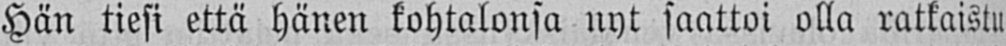Hän tiesi että hänen kohtalonsa nyt saattoi olla ratkaistu
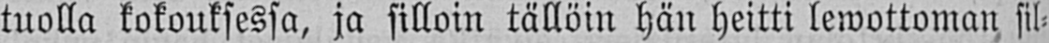tuolla kokouksessa, ja silloin tällöin hän heitti lewottoman sil-
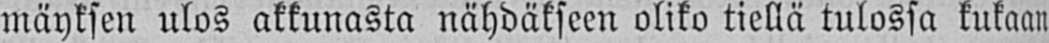mäyksen ulos akkunasta nähdäkseen oliko tiellä tulossa kukaan
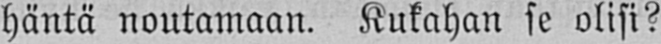häntä noutamaan. Kukahan se olisi?
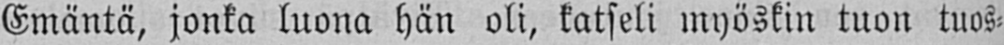Emäntä, jonka luona hän oli, katseli myöskin tuon tuos-
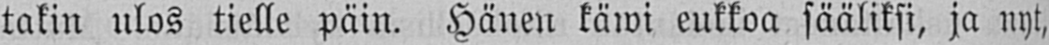takin ulos tielle päin. Hänen käwi eukkoa sääliksi, ja nyt,
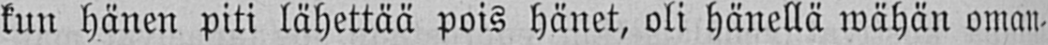kun hänen piti lähettää pois hänet, oli hänellä wähän oman-
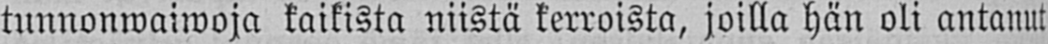tunnonwaiwoja kaikista niistä kerroista, joilla hän oli antanut
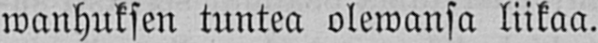wanhuksen tuntea olewansa liikaa.
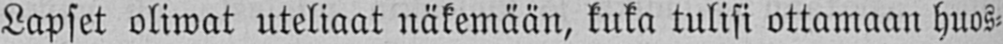Lapset oliwat uteliaat näkemään, kuka tulisi ottamaan huos-
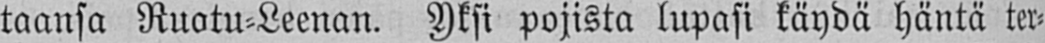taansa Ruotu-Leenan. Yksi pojista lupasi käydä häntä ter-
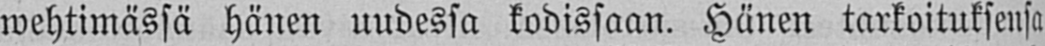wehtimässä hänen uudessa kodissaan. Hänen tarkoituksensa
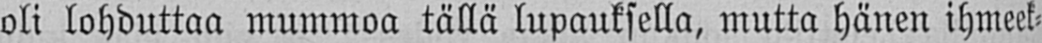oli lohduttaa mummoa tällä lupauksella, mutta hänen ihmeek-
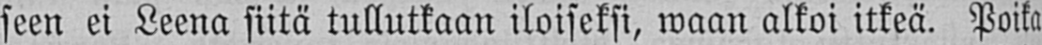seen ei Leena siitä tullutkaan iloiseksi, waan alkoi itkeä. Poika
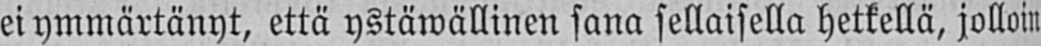ei ymmärtänyt, että ystäwällinen sana sellaisella hetkellä, jolloin
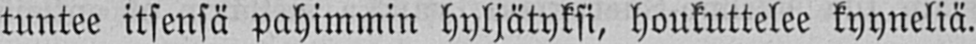tuntee itsensä pahimmin hyljätyksi, houkuttelee kyyneliä.
